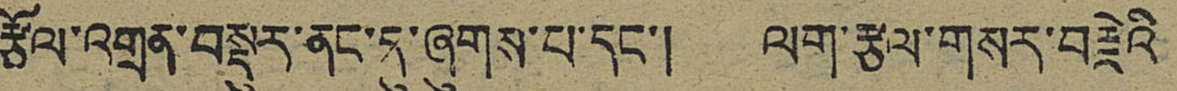རྩོལ་འགྲན་བསྡུར་ནང་དུ་ཞུགས་པ་དང་། ལག་རྩལ་གསར་བརྗེའི
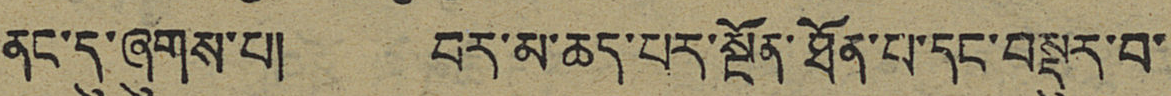ནང་དུ་ཞུགས་པ། བར་མ་ཆད་པར་སྔོན་ཐོན་པ་དང་བསྡུར་བ་
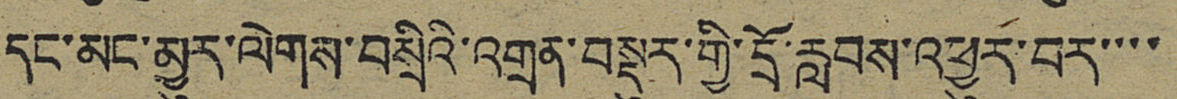དང་མང་མྱུར་ལེགས་བསྲིའི་འགྲན་བསྡུར་གྱི་དྲོ་རླབས་འཕྱུར་བར་་་་
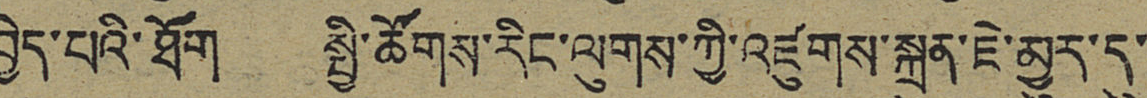བྱེད་པའི་ཐོག སྤྱི་ཚོགས་རིང་ལུགས་ཀྱི་འཛུགས་སྐྲུན་ཇེ་མྱུར་དུ་
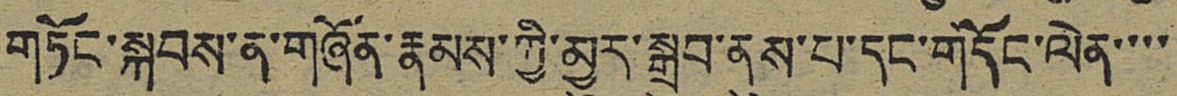གཏོང་སྐབས་ན་གཞོན་རྣམས་ཀྱི་མྱུར་སྒྲུབ་ནུས་པ་དང་གདོང་ལེན་་་་
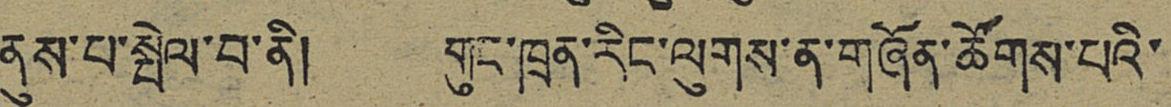ནུས་པ་སྤེལ་བ་ནི། གུང་ཁྲན་རིང་ལུགས་ན་གཞོན་ཚོགས་པའི་
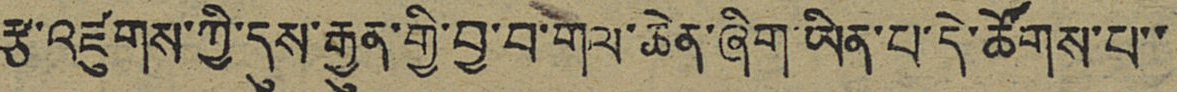རྩ་འཛུགས་ཀྱི་དུས་རྒྱུན་གྱི་བྱ་བ་གལ་ཆེན་ཞིག་ཡིན་པ་དེ་ཚོགས་པ་་
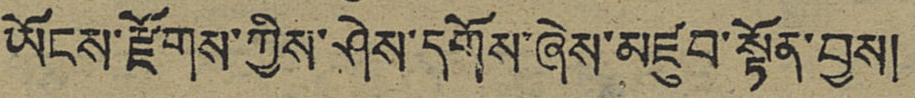ཡོངས་རྫོགས་ཀྱིས་ཤེས་དགོས་ཞེས་མཛུབ་སྟོན་བྱས།
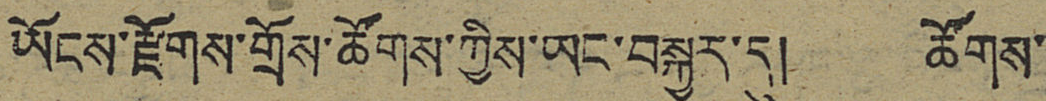ཡོངས་རྫོགས་གྲོས་ཚོགས་ཀྱིས་ཡང་བསྐྱར་དུ། ཚོགས་
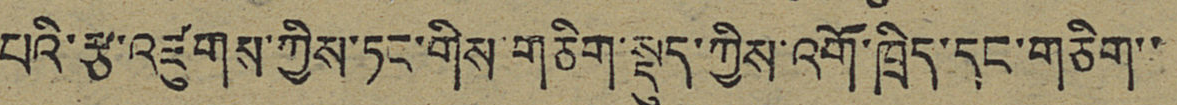པའི་རྩ་འཛུགས་ཀྱིས་ཏང་གིས་གཅིག་སྡུད་ཀྱིས་འགོ་ཁྲིད་དང་གཅིག་་
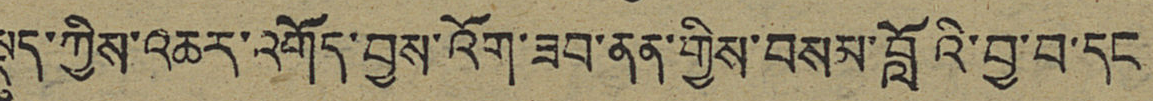སྡུད་ཀྱིས་འཆར་འགོད་བྱས་འོག་ཟབ་ནན་གྱིས་བསམ་བློའི་བྱ་བ་དང
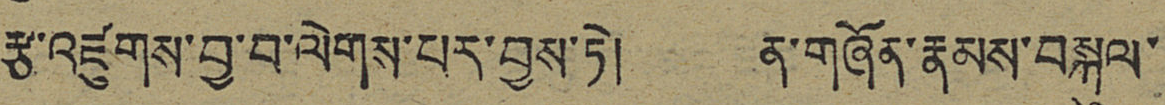རྩ་འཛུགས་བྱ་བ་ལེགས་པར་བྱས་ཏེ། ན་གཞོན་རྣམས་བསྐུལ་
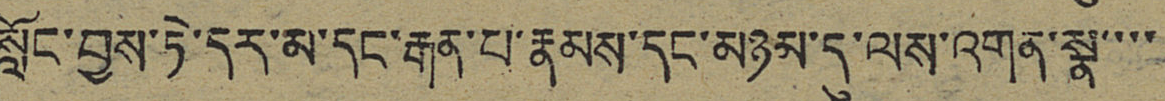སློང་བྱས་ཏེ་དར་མ་དང་རྒན་པ་རྣམས་དང་མཉམ་དུ་ལས་འགན་སྣ་་་་
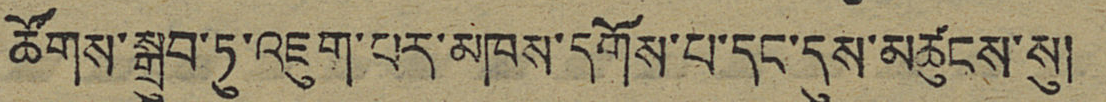ཚོགས་སྒྲུབ་ཏུ་འཇུག་པར་མཁས་དགོས་པ་དང་དུས་མཚུངས་སུ།
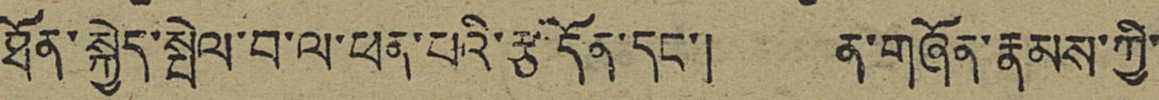ཐོན་སྐྱེད་སྤེལ་བ་ལ་ཕན་པའི་རྩ་དོན་དང་། ན་གཞོན་རྣམས་ཀྱི་
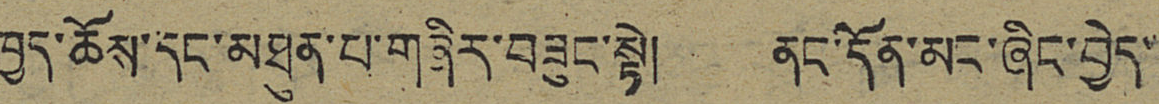ཁྱད་ཆོས་དང་མཐུན་པ་གཞིར་བཟུང་སྟེ། ནང་དོན་མང་ཞིང་བྱེད་
